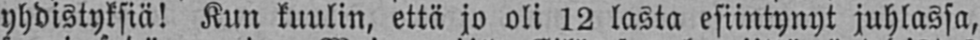yhdistyksiä! Kun kuulin, että jo oli 12 lasta esiintynyt juhlassa,
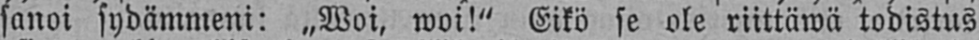sanoi sydämmeni: „Woi, woi!" Eikö se ole riittäwä todistus
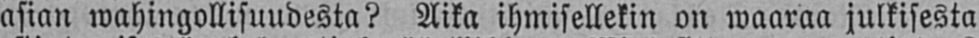asian wahingollisuudesta? Aika ihmisellekin on waaraa julkisesta
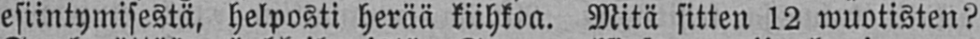esiintymisestä, helposti herää kiihkoa. Mitä sitten 12 wuotisten?
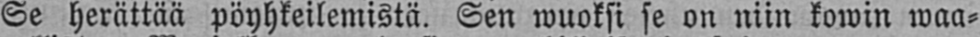Se herättää pöyhkeilemistä. Sen wuoksi se on niin kowin waa-
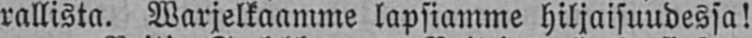rallista. Warjelkaamme lapsiamme hiljaisuudessa!
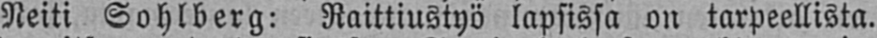Neiti Sahlberg: Raittiustyö lapsissa on tarpeellista.
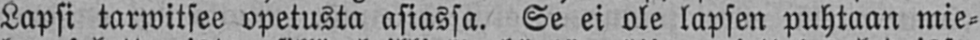Lapsi tarwitsee opetusta asiassa. Se ei ole lapsen puhtaan mie-
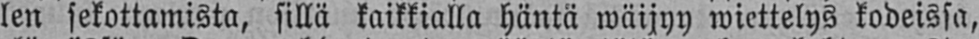len sekottamista, sillä kaikkialla häntä wäijyy wiettelys kodeissa,
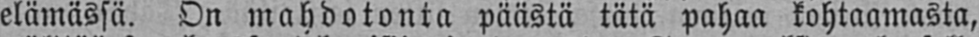elämässä. On mahdotonta päästä tätä pahaa kohtaamasta,
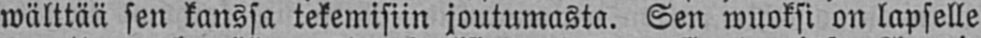wälttää sen kanssa tekemisiin joutumasta. Sen wuoksi on lapselle
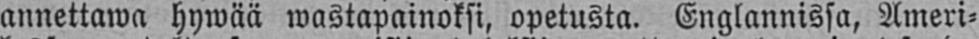annettawa hywää wastapainoksi, opetusta. Englannissa, Ameri-
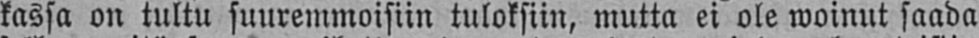kassa on tultu suuremmoisiin tuloksiin, mutta ei ole woinut saada
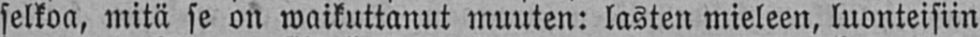selkoa, mitä se on waikuttanut muuten: lasten mieleen, luonteisiin
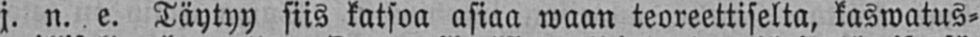j. n. e. Täytyy siis katsoa asiaa waan teoreettiselta, kaswatus-
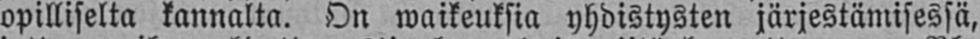opilliselta kannalta. On waikeuksia yhdistysten järjestämisessä,
